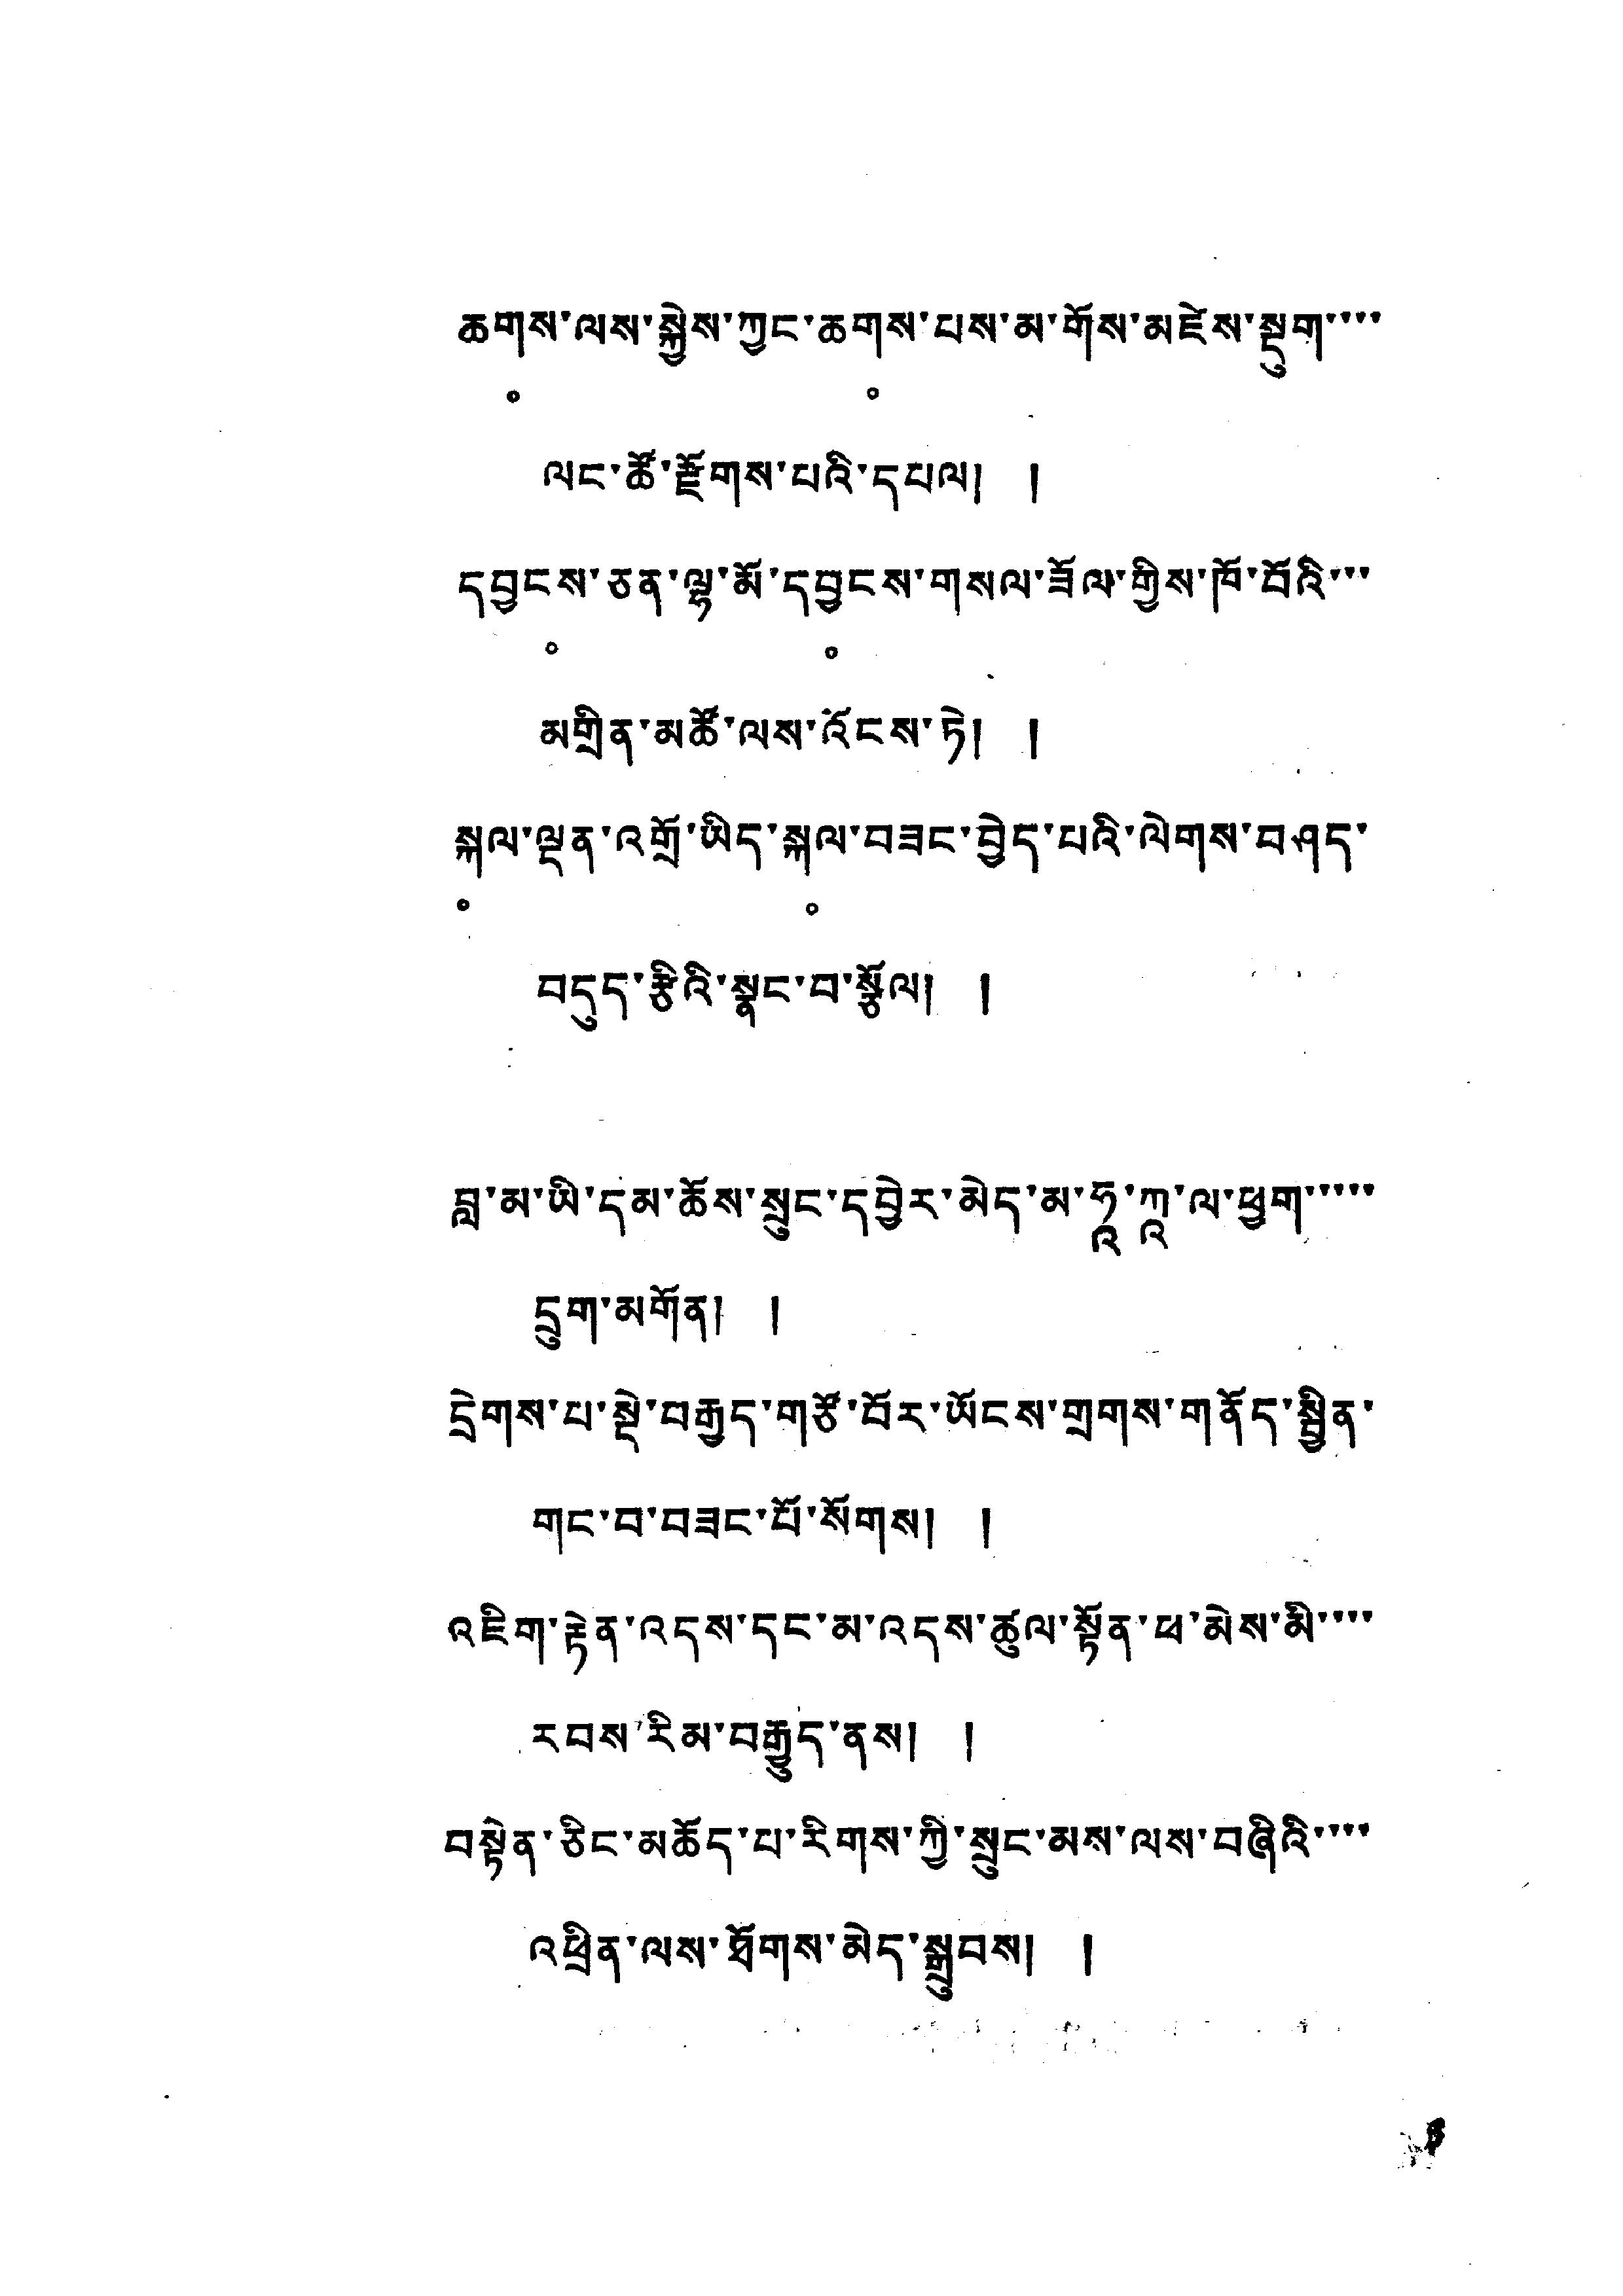ཆག༷ས་ལས་སྐྱེས་ཀྱང་ཆག༷ས་པས་མ་གོས་མཛེས་སྡུག་་་་
ལང་ཚོ་རྫོགས་པའི་དཔལ། །
དབྱ༷ངས་ཅན་ལྷ་མོ་དབྱ༷ངས་གསལ་ཟོལ་གྱིས་ཁོ་བོའི་་་
མགྲིན་མཚོ་ལས་འོངས་ཏེ། །
སྐ༷ལ་ལྡན་འགྲོ་ཡིད་སྐ༷ལ་བཟང་བྱེད་པའི་ལེགས་བཤད་
བདུད་རྩིའི་སྣང་བ་སྩོལ། །
བླ་མ་ཡི་དམ་ཆོས་སྲུང་དབྱེར་མེད་མ་ཧཱ་ཀཱ་ལ་ཕྱག་་་་་
དྲུག་མགོན། །
དྲེགས་པ་སྡེ་བརྒྱད་གཙོ་བོར་ཡོངས་གྲགས་གནོད་སྦྱིན་
གང་བ་བཟང་པོ་སོགས། །
འཇིག་རྟེན་འདས་དང་མ་འདས་ཚུལ་སྟོན་ཕ་མེས་མི་་་་
རབས་རིམ་བརྒྱུད་ནས་། །
བསྟེན་ཅིང་མཆོད་པ་རིགས་ཀྱི་སྲུང་མས་ལས་བཞིའི་་་་
འཕྲིན་ལས་ཐོགས་མེད་སྒྲུབས་། །
3
